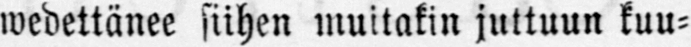wedettänee siihen muitakin juttuun kuu-
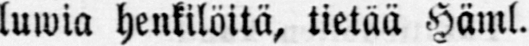luwia henkilöitä, tietää Häml.
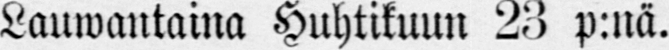Lauwantaina Huhtikuun 23 p:nä.
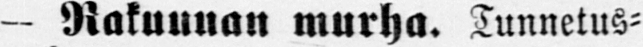— Rakuunan murha. Tunnetus-
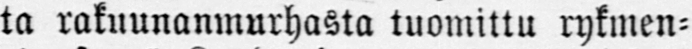ta rakuunanmurhasta tuomittu rykmen-
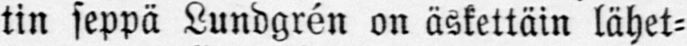tin seppä Lundgrén on äskettäin lähet-
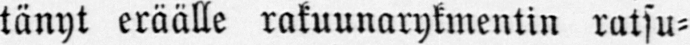tänyt eräälle rakuunarykmentin ratsu-
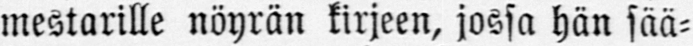mestarille nöyrän kirjeen, jossa hän sää-
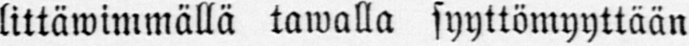littäwimmällä tawalla syyttömyyttään
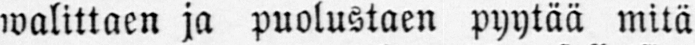walittaen ja puolustaen pyytää mitä
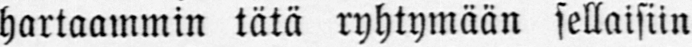hartaammin tätä ryhtymään sellaisiin
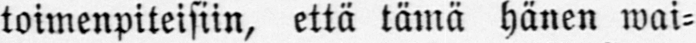toimenpiteisiin, että tämä hänen wai-
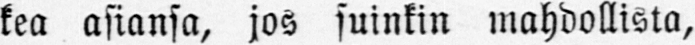kea asiansa, jos suinkin mahdollista,
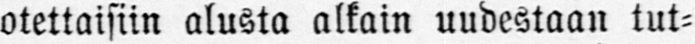otettaisiin alusta olkain uudestaan tut-
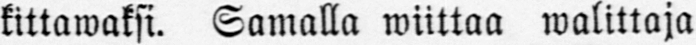kittawaksi. Samalla wiittaa walittaja
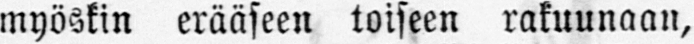myöskin erääseen toiseen rakuunaan,
